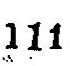111
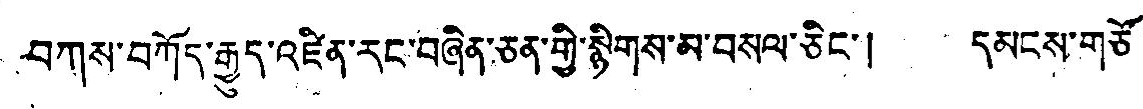བཀས་བཀོད་རྒྱུད་འཛིན་རང་བཞིན་ཅན་གྱི་སྙིགས་མ་བསལ་ཅིང་། དམངས་གཙོ་
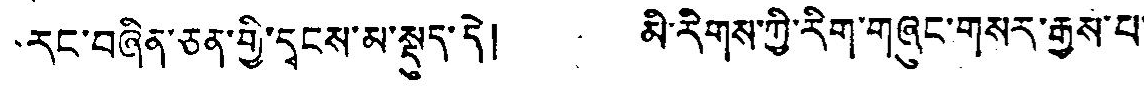རང་བཞིན་ཅན་གྱི་དྭངས་མ་སྡུད་དེ། མི་རིགས་ཀྱི་རིག་གཞུང་གསར་རྒྱས་པ་
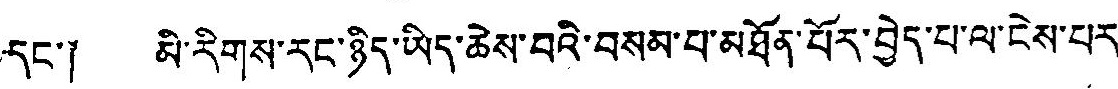དང་། མི་རིགས་རང་ཉིད་ཡིད་ཆེས་བའི་བསམ་པ་མཐོན་པོར་བྱེད་པ་ལ་ངེས་པར་
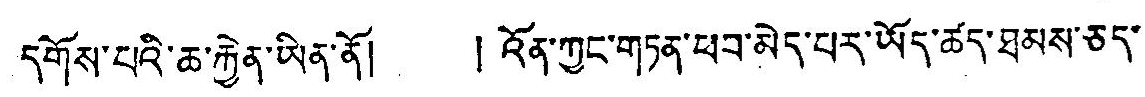དགོས་པའི་ཆ་རྐྱེན་ཡིན་ནོ། ། འོན་ཀྱང་གཏན་ཕབ་མེད་པར་ཡོད་ཚད་ཐམས་ཅད
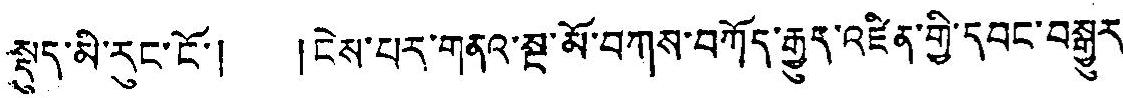སྡུད་མི་རུང་ངོ་། །ངེས་པར་གནའ་སྔ་མོ་བཀས་བཀོད་རྒྱུད་འཛིན་གྱི་དབང་བསྒྱུར་
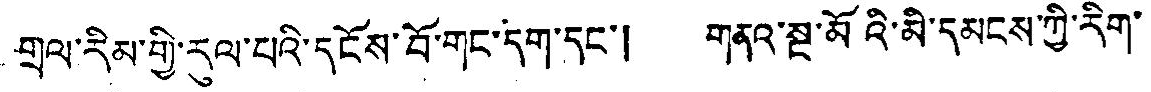གྲལ་རིམ་གྱི་རུལ་པའི་དངོས་བོ་གང་དག་དང་། གནའ་སྔ་མོའི་མི་དམངས་ཀྱི་རིག་
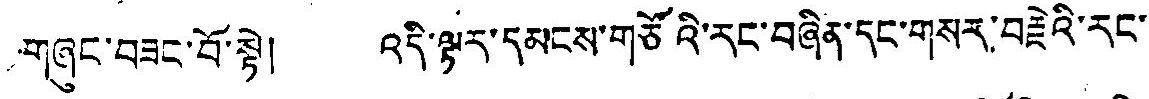གཞུང་བཟང་བོ་སྟེ། འདི་ལྟར་དམངས་གཙོའི་རང་བཞིན་དང་གསར་བརྗེའི་རང་
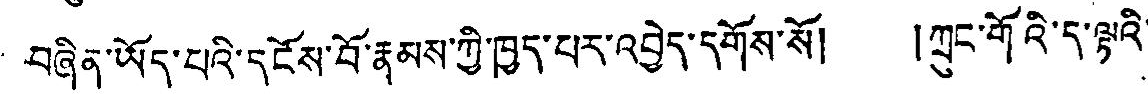བཞིན་ཡོད་པའི་དངོས་བོ་རྣམས་ཀྱི་ཁྱད་པར་འབྱེད་དགོས་སོ། །ཀྲུང་གོའི་ད་ལྟའི་
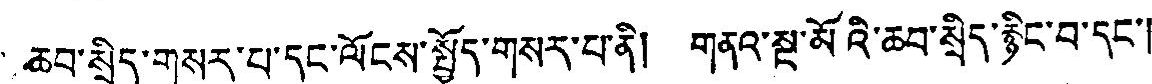ཆབ་སྲིད་གསར་པ་དང་ལོངས་སྤྱོད་གསར་པ་ནི། གནའ་སྔ་མོའི་ཆབ་སྲིད་རྙིང་བ་དང་།
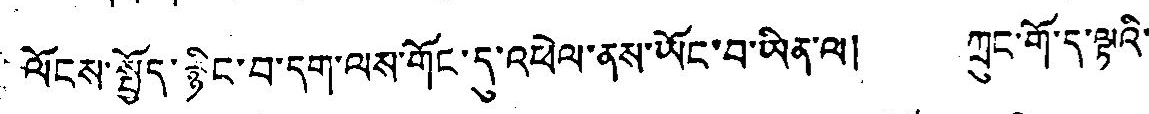ལོངས་སྤྱོད་རྙིང་བ་དག་ལས་གོང་དུ་འཕེལ་ནས་ཡོང་བ་ཡིན་ལ། ཀྲུང་གོ་ད་ལྟའི་
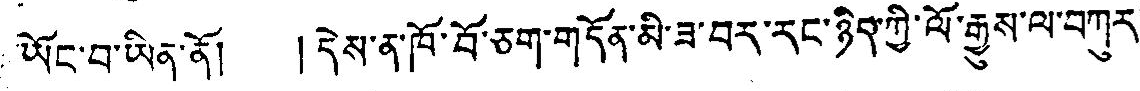ཡོང་བ་ཡིན་ནོ། །དེས་ན་ཁོ་བོ་ཅག་གདོན་མི་ཟ་བར་རང་ཉིད་ཀྱི་ལོ་རྒྱུས་ལ་བཀུར་
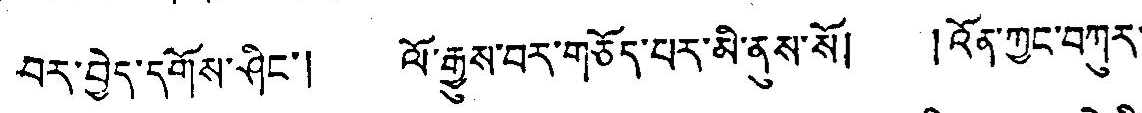བར་བྱེད་དགོས་ཤིང་། ལོ་རྒྱུས་བར་གཅོད་པར་མི་ནུས་སོ། །འོན་ཀྱང་བཀུར་
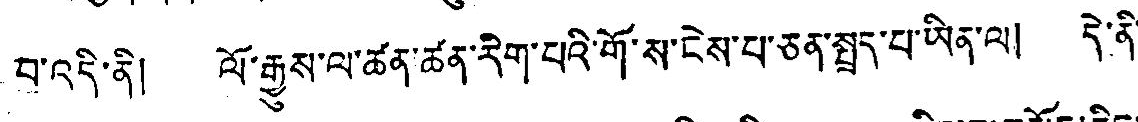བ འདི་ནི། ལོ་རྒྱུས་ལ་ཚན་ཚན་རིག་པའི་གོ་ས་ངེས་པ་ཅན་པྲད་པ་ཡིན་ལ། དེ་ནི་
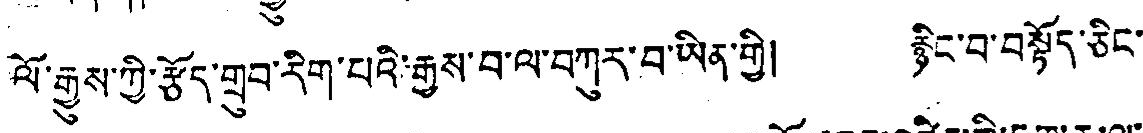ལོ་རྒྱུས་ཀྱི་རྩོད་གྲུབ་རིག་པའི་རྒྱས་བ་ལ་བཀུར་བ་ཡིན་གྱི། རྙིང་བ་བསྟོད་ཅིང་
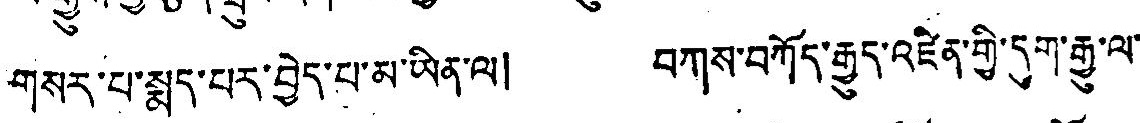གསར་པ་སྨད་པར་བྱེད་པ་མ་ཡིན་ལ། བཀས་བཀོད་རྒྱུད་འཛིན་གྱི་དུག་རྒྱུ་ལ་
